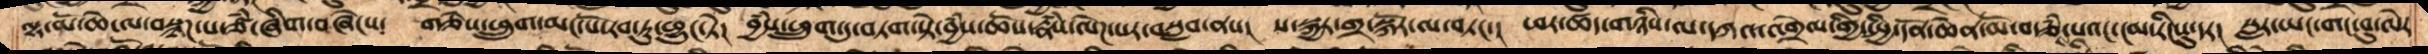ལྷ་མོ་ཆེ་ལ་བསྙཌ་པ་ཙཾ་ཞིག་བཞེངས།  གཅེས་ཕྲུག་མང་པོ་རབ་ཏུ་ཕྱུང་ཏེ།  བྱཾས་ཕྲུག་དུ་བཏག་སྟེ་བྱཾས་ཆོས་རྣཾས་ལེཌ་པར་བསླབ་ནས།  ས་སྐྱར་གྲ་སྐོར་ལ་བཏང་།  ཕར་ཚད་གཉིས་ལ་དཀའ་འགྲེལ་གྱི་སྤྱི་དོན་ཆེན་མོ་བརྩཾ་པའང་ངམ་རིངསུ་དར།  སླར་ཡང་གང་བུ་ལེར་
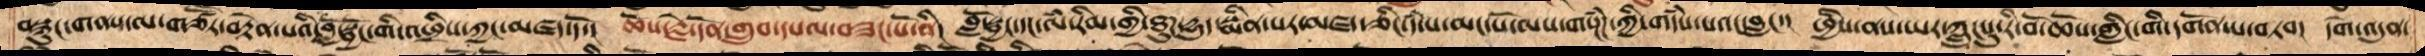བསྙུང་གནས་ལ་གཙཽར་བརྟེན་པའི་བློ་སྦྱོང་གི་འཕྲིས་ཀྱང་མཛད་དོ།  ཆོས་རྗེ་དོན་གྲུབ་དཔལ་བཟང་པོ་ནི།  བློ་སྦྱོང་དང་ལཾ་རིམ་གྱི་ཐུཌ་དྱུད་སྨིན་པར་མཛད་ཅིང་དཾ་པ་མང་པོ་ལས་གསྔཌཾ་ཀྱི་གདཾས་པའང་བླང་།  ཕྱིས་ནས་ཡར་ཀླུང་དུ་རི་བོ་ཆོས་གླིང་གི་དགོན་པ་བཏབ།  དགེ་འདུན་
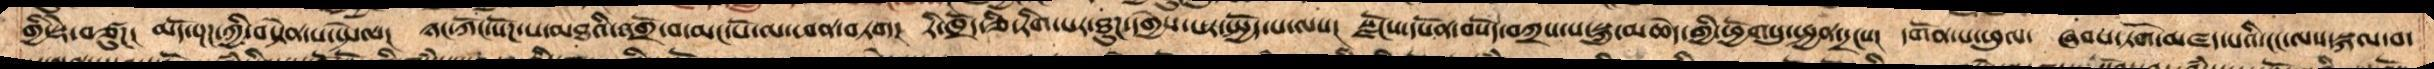གྱི་སྡེ་བཙུཌ།  མདོ་སྔཌ་ཀྱི་བསྟེན་པ་སྤེལ།  ཉང་ཀོང་སོཌ་པ་མཐའི་འགྲོ་བ་མང་པོ་ལ་ཕན་བཏག།  རི་ཁྲོད་ཅི་རིག་པར་ཐུཌ་དགྱེས་པར་སྤྱོད་པ་ལས།  སྫོངས་དཔོན་བསོད་བཀྲས་པ་སྐུ་མཆེད་གྱི་ཕྱོགསུ་སྤྱན་དྲངས།  དགོན་པ་ཕུལ་  ཞབས་ཏོག་མཛད་པའི་ངང་ལས་སྐལ་བ་
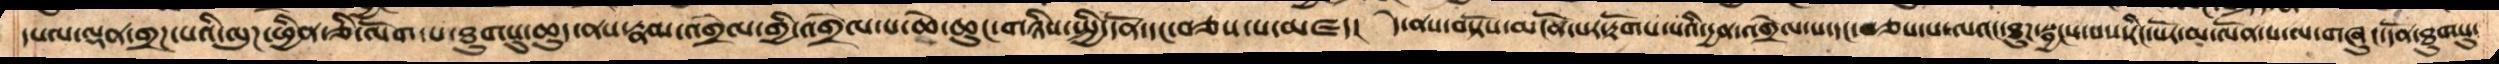དཔལ་ལྡན་གྲཌ་པའི་ལུཌ་ཕྱིན་ཅི་ལོག་པ་ཐུགསུ་ཆུད་ནས་རྣམ་འགྲེལ་གྱི་འགྲེལ་པ་ཆེ་ཆུང་གཉིས་སྤྱི་དོན་དང་བཅས་པ་མཛད།  དེ་ནས་བསྟོས་མངོན་པར་རྟོགས་པའི་དྱན་འགྲེལ་པ་དང་བཅས་པ་ལའང་ཐུཌ་སྦྱངས་པས་རིང་པོར་མ་ལོན་པ་ལ་གཞུང་དོན་ཐུགསུ་
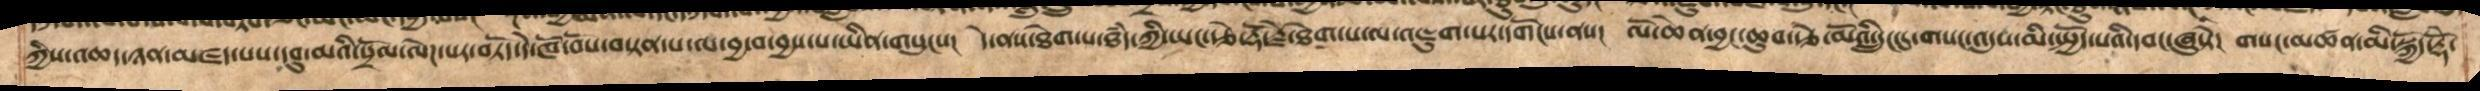ཀྱིས་འཆད་ཉན་མཛད་པས་དབུ་མའི་སྲོལ་ལེཌ་པར་བཏོད་དེ་ཁོ་བོས་བསྟན་པ་ལ་བྱ་བ་བྱས་པ་ཡིན་གསུངས་།  དེ་ནས་ཐེག་པ་ཐཾད་ཀྱི་ཡང་རྩེ་རྡོ་རྗེའི་ཐེག་པ་ལ་འཇུག་པར་དགོངས་ནས།  ལོ་ཆེན་བྱང་ཆུབ་རྩེ་མོའི་དྲུང་དུ་གསང་འདུས་མི་སྤྱོད་པའི་དབང་ཞུསྟེ།  གསང་མཚན་མི་སྐྱོད་རྡོ་ེ
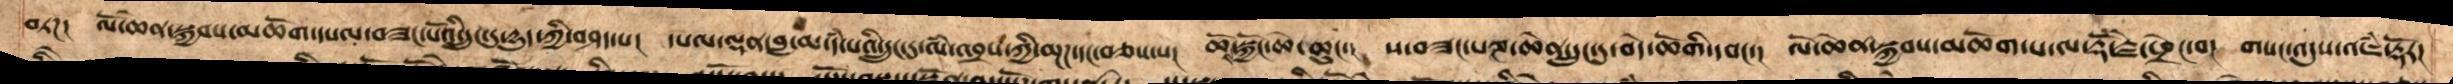བཏཌ།  ལོ་ཆེན་སྐྱབས་མཆོག་དཔལ་བཟང་པོའི་དྲུང་དུ་དྱུད་ཀྱི་བཤད་པ།  དཔལ་ལྡན་བླ་མ་དཾ་པའི་དྲུང་དུ་ལཾ་འབྲས་མྔཌ་དང་བཅས་པ།  ཆོས་སྐྱོང་ཆེ་ཆུང་།  ས་བཟང་པཎ་ཆེན་དྲུང་དུ་བདེ་མཆོགི་དབང་།  ལོ་ཆེན་སྐྱབས་མཆོག་པ་ལ་རྡོ་རྗེ་ཕྲེང་བ།  གསང་འདུས་འཇཾ་རྡོར།
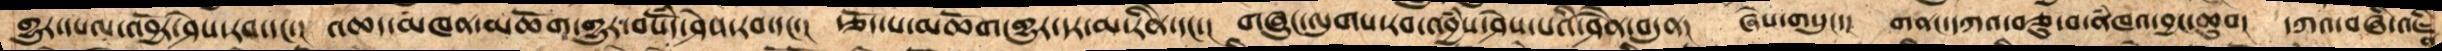གྱུར་དཔལ་འབྱོར་ཤེས་རབ་དང་།  འཆད་མཁན་མཆོག་གྱུར་བསོཾད་ཤེས་རབ་དང་།  རྩོད་པ་མཆོག་གྱུར་དར་མ་རིནེ་དང་།  གཞུང་ལུགས་རབ་འབྱཾས་ཤེས་པའི་བཤཻན་བདུན།  ཞེས་གསུང་།  གནང་དཀའ་བཅུ་བ་ནཾཁའ་བྱང་ཆུབ།  དཀའ་བཞི་འཛིན་
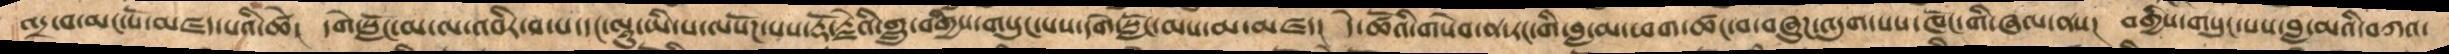འདྲ་བ་མང་པོ་མཛད་པའི་ཚེ།  དགེ་སློང་མ་ལ་འབིར་བ་པ་དང་ལྟུ་ཡི་པ་ལསོཌ་པས་རྡོ་རྗེའི་གླུ་བགྱིས་གསུང་པས་དགེ་སློང་མས་མ་མཛད།  དེ་ཚོའི་གསེབ་ན་རང་གི་བླ་མ་ཕག་ཚང་བ་བཞུཌ་འདུག་པས་ཁོང་གི་ཞལ་ནས།  བགྱིས་གསུང་པས་བླ་མའི་བཀའ་
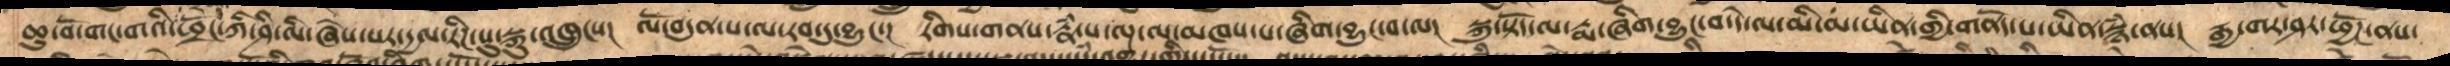ཆུ་བོ་གང་གའི་ཕྲོང་ཀི་ཤི་ལི་ཞེས་པར་དྱལ་རིཌ་སུ་སྐུ་འཁྲུངས།  ལོ་བདུན་པ་ལ་རབ་དུ་བྱུང་།  རིགས་གནས་རྣཾ་པ་ལྔ་ལ་མཁས་པ་ཞིག་བྱུང་བ་ལ།  སྐུ་སྟོད་ལ་རྨ་ཞིག་བྱུང་བ་དེ་ལ་མི་མ་ཡིན་གྱི་གནོད་པ་ཡིན་སྙཾ་ནས།  དྱ་གར་ཤར་ཕྱོཌ་ནས་
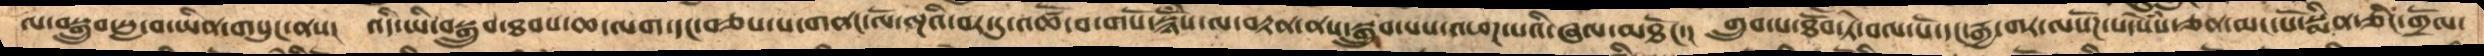ལ་བསྒྲུབ་སླ་བ་ཡིན་གསུང་ནས།   འདི་ཡི་བསྒྲུབ་ཐབས་ཆ་ལག་དང་བཅས་པ་གནང་ལོ་ལྔའི་བར་དུ་འཚོ་བ་གསོ་སྙོཾས་ལ་བརྟན་ནས་སྒྲུབ་པས་འཕཌ་པའི་ཞལ་མཐོང་།  གྲུབ་པ་ཐོབ་ཏེ་བལ་པོ་དང་དྱ་གར་ལསོཌ་པ་སེཾས་ཅན་མང་པོ་སྨིན་ཅིང་གྲོལ་
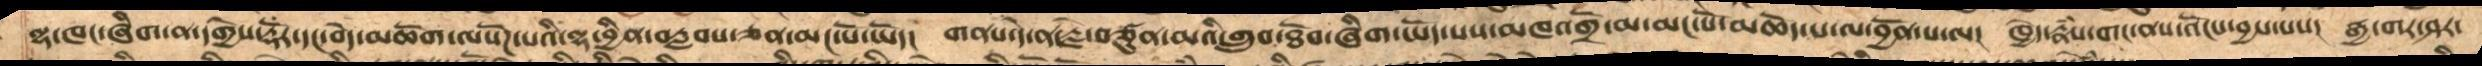ལྷ་ཁང་ཞིག་ན་དགྱེས་རྡོར་དང་བདེ་མཆོག་ལ་སོཌ་པའི་ལྷ་བྱིན་བརླབས་ཅན་མང་པོ་ཡོད།  གནས་དེ་ན་རྗེ་བཙུན་མའི་གྲུབ་ཐོབ་ཞིག་ཡོད་པས་མཁའ་འགྲོ་མ་མང་པོ་མཆོད་པ་ལ་བྱོན་པ་ལ་།  ཁྱེད་རྣཾས་གང་ནས་འོངས་བྱས་པས།  དྱ་གར་ཤར་
